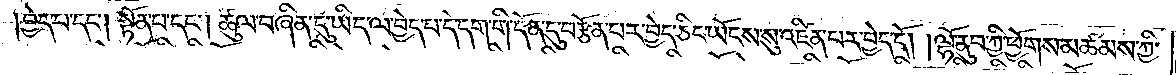བྱེད་པ་དང༌། སྟོན་པ་དང༌། ཚུལ་བཞིན་དུ་ཡིད་ལ་བྱེད་པ་དེ་དག་གི་དོན་དུ་བརྩོན་པར་བྱེད་ཅིང་ཡོངས་སུ་འཛིན་པར་བྱེད་དོ། །ལྷོ་ནུབ་ཀྱི་ཕྱོགས་མཚམས་ཀྱི་
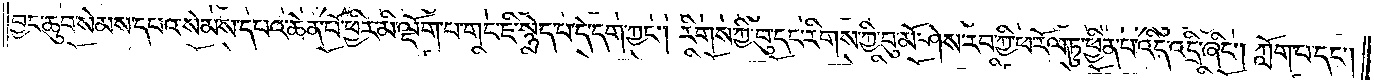བྱང་ཆུབ་སེམས་དཔའ་སེམས་དཔའ་ཆེན་པོ་ཕྱིར་མི་ལྡོག་པ་གང་ཇི་སྙེད་པ་དེ་དག་ཀྱང༌། རིགས་ཀྱི་བུ་དང་རིགས་ཀྱི་བུ་མོ་ཤེས་རབ་ཀྱི་ཕ་རོལ་ཏུ་ཕྱིན་པ་འདི་འདྲི་ཞིང༌། ཀློག་པ་དང༌།
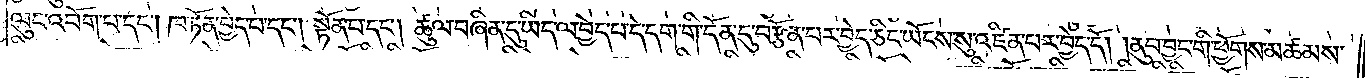ལུང་འབོག་པ་དང༌། ཁ་ཏོན་བྱེད་པ་དང༌། སྟོན་པ་དང༌། ཚུལ་བཞིན་དུ་ཡིད་ལ་བྱེད་པ་དེ་དག་གི་དོན་དུ་བརྩོན་པར་བྱེད་ཅིང་ཡོངས་སུ་འཛིན་པར་བྱེད་དོ། །ནུབ་བྱང་གི་ཕྱོགས་མཚམས་
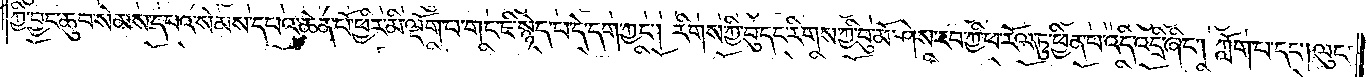ཀྱི་བྱང་ཆུབ་སེམས་དཔའ་སེམས་དཔའ་ཆེན་པོ་ཕྱིར་མི་ལྡོག་པ་གང་ཇི་སྙེད་པ་དེ་དག་ཀྱང༌། རིགས་ཀྱི་བུ་དང་རིགས་ཀྱི་བུ་མོ་ཤེས་རབ་ཀྱི་ཕ་རོལ་ཏུ་ཕྱིན་པ་འདི་འདྲི་ཞིང༌། ཀློག་པ་དང༌། ལུང་
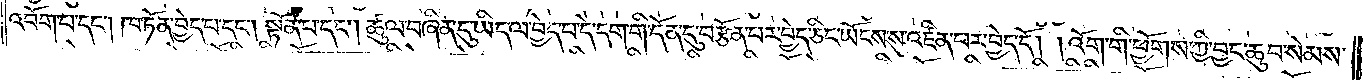འབོག་པ་དང༌། ཁ་ཏོན་བྱེད་པ་དང༌། སྟོན་པ་དང༌། ཚུལ་བཞིན་དུ་ཡིད་ལ་བྱེད་པ་དེ་དག་གི་དོན་དུ་བརྩོན་པར་བྱེད་ཅིང་ཡོངས་སུ་འཛིན་པར་བྱེད་དོ། །འོག་གི་ཕྱོགས་ཀྱི་བྱང་ཆུབ་སེམས་
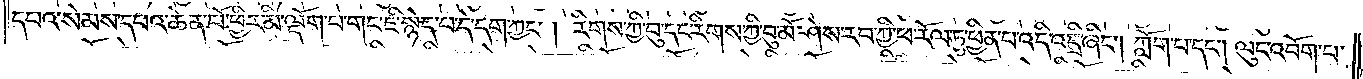དཔའ་སེམས་དཔའ་ཆེན་པོ་ཕྱིར་མི་ལྡོག་པ་གང་ཇི་སྙེད་པ་དེ་དག་ཀྱང༌། རིགས་ཀྱི་བུ་དང་རིགས་ཀྱི་བུ་མོ་ཤེས་རབ་ཀྱི་ཕ་རོལ་ཏུ་ཕྱིན་པ་འདི་འདྲི་ཞིང༌། ཀློག་པ་དང༌། ལུང་འབོག་པ་
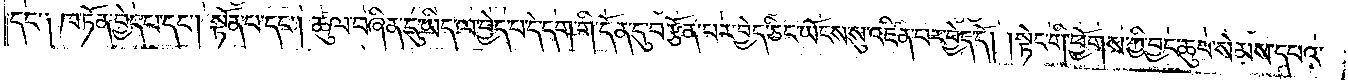དང་༑ ཁ་ཏོན་བྱེད་པ་དང༌། སྟོན་པ་དང༌། ཚུལ་བཞིན་དུ་ཡིད་ལ་བྱེད་པ་དེ་དག་གི་དོན་དུ་བརྩོན་པར་བྱེད་ཅིང་ཡོངས་སུ་འཛིན་པར་བྱེད་དོ། །སྟེང་གི་ཕྱོགས་ཀྱི་བྱང་ཆུབ་སེམས་དཔའ་
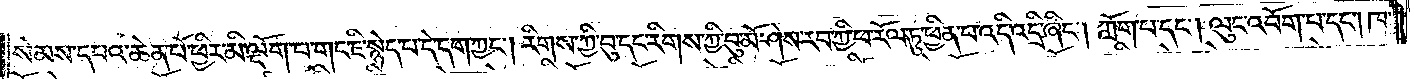སེམས་དཔའ་ཆེན་པོ་ཕྱིར་མི་ལྡོག་པ་གང་ཇི་སྙེད་པ་དེ་དག་ཀྱང༌། རིགས་ཀྱི་བུ་དང་རིགས་ཀྱི་བུ་མོ་ཤེས་རབ་ཀྱི་ཕ་རོལ་ཏུ་ཕྱིན་པ་འདི་འདྲི་ཞིང༌། ཀློག་པ་དང༌། ལུང་འབོག་པ་དང༌། ཁ་
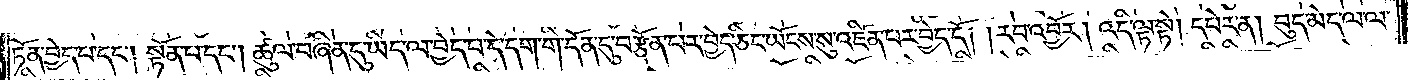ཏོན་བྱེད་པ་དང༌། སྟོན་པ་དང༌། ཚུལ་བཞིན་དུ་ཡིད་ལ་བྱེད་པ་དེ་དག་གི་དོན་དུ་བརྩོན་པར་བྱེད་ཅིང་ཡོངས་སུ་འཛིན་པར་བྱེད་དོ། །རབ་འབྱོར། འདི་ལྟ་སྟེ། དཔེར་ན། བུད་མེད་ལ་ལ་
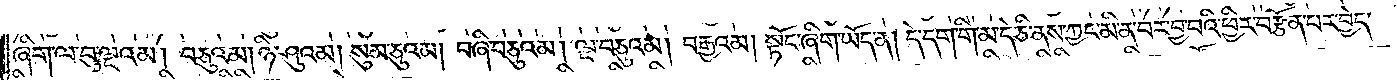ཞིག་ལ་བུ་ལྔའམ། བཅུའམ། ཉི་ཤུའམ། སུམ་ཅུའམ། བཞི་བཅུའམ། ལྔ་བཅུའམ། བརྒྱའམ། སྟོང་ཞིག་ཡོད་ན། དེ་དག་གི་མ་དེ་ཅ་ནིས་ཀྱང་མི་ན་བར་བྱ་བའི་ཕྱིར་བརྩོན་པར་བྱེད་
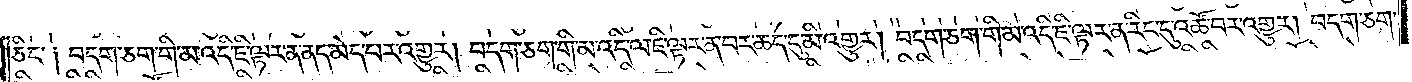ཅིང་༑ བདག་ཅག་གི་མ་འདི་ཇི་ལྟར་ན་ནད་མེད་པར་འགྱུར། བདག་ཅག་གི་མ་འདི་ལ་ཇི་ལྟར་ན་བར་ཆད་དུ་མི་འགྱུར། བདག་ཅག་གི་མ་འདི་ཇི་ལྟར་ན་རིང་དུ་འཚོ་བར་འགྱུར། བདག་ཅག་
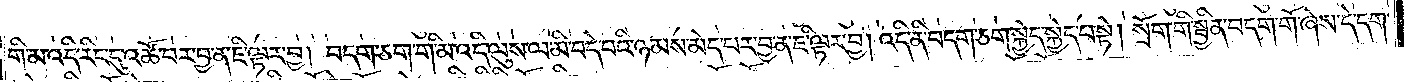གི་མ་འདི་རིང་དུ་འཚོ་བར་བྱ་ན་ཇི་ལྟར་བྱ། བདག་ཅག་གི་མ་འདི་ལུས་ལ་མི་བདེ་བའི་ཉམས་མེད་པར་བྱ་ན་ཇི་ལྟར་བྱ། འདི་ནི་བདག་ཅག་སྐྱེད་སྐྱེད་པ་སྟེ། སྲོག་གི་སྦྱིན་བདག་གོ་ཞེས་དེ་དག་
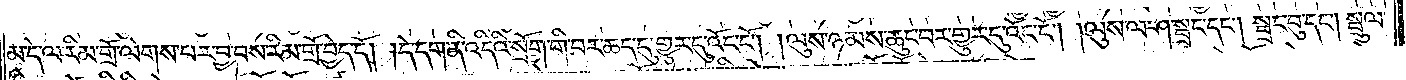མ་དེ་ལ་རིམ་གྲོ་ལེགས་པར་བྱ་བས་རིམ་གྲོ་བྱེད་དོ། །དེ་དག་ནི་འདིའི་སྲོག་ག་བར་ཆད་དུ་གྱུར་དུ་འོང་ངོ༌། །ལུས་ཉམས་ཆུང་བར་གྱུར་དུ་འོང་ངོ༌། །ལུས་ལ་ཤ་སྦྲང་དང༌། སྦྲང་བུ་དང༌། སྦྲུལ་
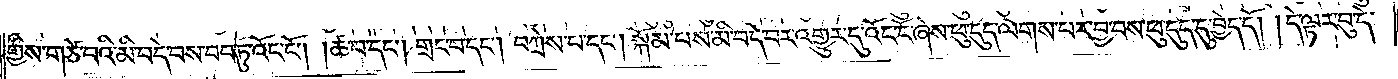གྱིས་གཙེ་བའི་མི་བདེ་བས་བབ་ཏུ་འོང་ངོ༌། །ཚ་བ་དང༌། གྲང་བ་དང༌། བཀྲེས་པ་དང༌། སྐོམ་པས་མི་བདེ་བར་འགྱུར་དུ་འོང་ངོ་ཞེས་ཕུ་དུང་ལེགས་པར་བྱ་བས་ཕུ་དུད་དུ་བྱེད་དོ། །དེ་ལྟར་བུ་དེ་
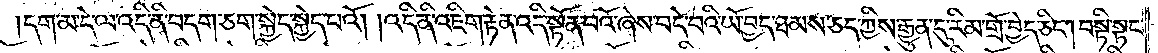དག་མ་དེ་ལ་འདི་ནི་བདག་ཅག་སྐྱེད་སྐྱེད་པའོ། །འདི་ནི་འཇིག་རྟེན་འདི་སྟོན་པའོ་ཞེས་བདེ་བའི་ཡོ་བྱད་ཐམས་ཅད་ཀྱིས་རྒྱུན་དུ་རིམ་གྲོ་བྱེད་ཅིང༌། བསྟི་སྟང་
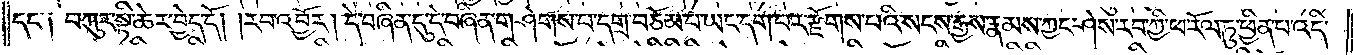དང་༑ བཀུར་སྟི་ཚེར་བྱེད་དོ། །རབ་འབྱོར། དེ་བཞིན་དུ་དེ་བཞིན་གཤེགས་པ་དགྲ་བཅོམ་པ་ཡང་དག་པར་རྫོགས་པའི་སངས་རྒྱས་རྣམས་ཀྱང་ཤེས་རབ་ཀྱི་ཕ་རོལ་ཏུ་ཕྱིན་པ་འདི་
